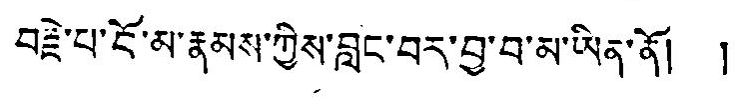བརྗེ་པ་ངོ་མ་རྣམས་ཀྱིས་བླང་བར་བྱ་བ་མ་ཡིན་ནོ། །
